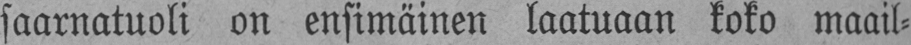saarnatuoli on ensimäinen laatuaan koko maail-
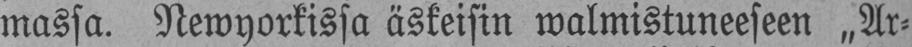massa. Newyorkissa äskeisin walmistuneeseen „Ar-
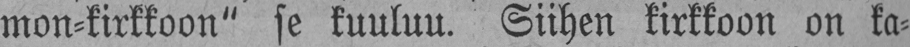mon-kirkkoon" se kuuluu. Siihen kirkkoon on kä-
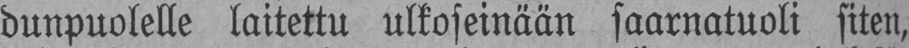dunpuolelle laitettu ulkoseinään saarnatuoli siten,
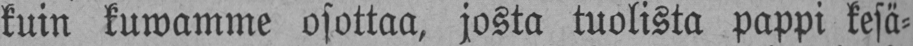kuin kuwamme osottaa, josta tuolista pappi kesä-
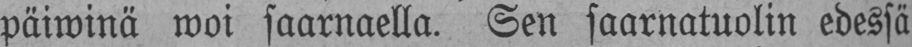päiwinä woi saarnaella. Sen saarnatuolin edessä
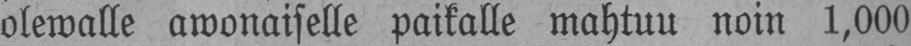olewalle awonaiselle paikalle mahtuu noin 1,000
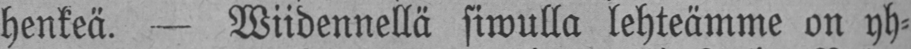henkeä. — Wiidennellä siwulla lehteämme on yh-
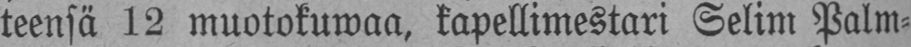teensä 12 muotokuwaa, kapellimestari Selim Palm-
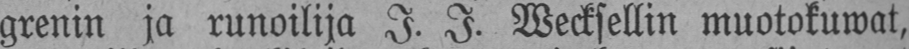grenin ja runoilija J. J. Wecksellin muotokuwat,
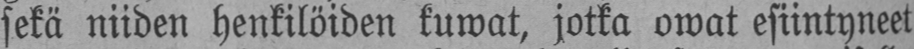sekä niiden henkilöiden kuwat, jotka owat esiintyneet
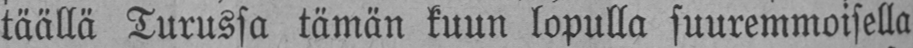täällä Turussa tämän kuun lopulla suuremmoisella
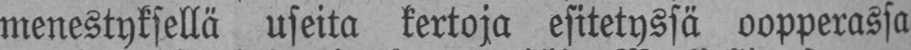menestyksellä useita kertoja esitetyssä oopperassa
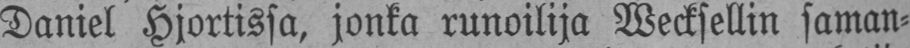Daniel Hjortissa, jonka runoilija Wecksellin saman-
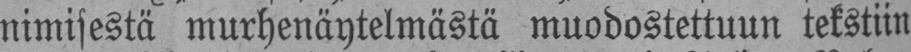nimisestä murhenäytelmästä muodostettuun tekstiin
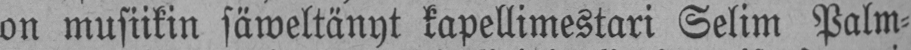on musiikin säweltänyt kapellimestari Selim Palm-
